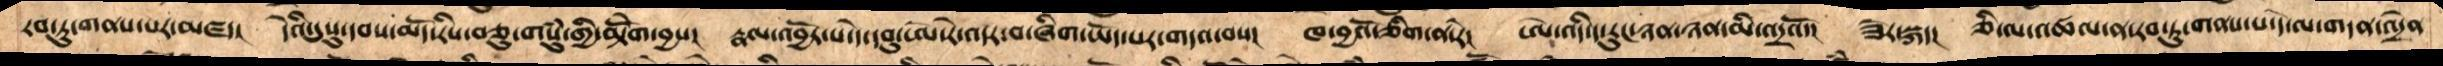རབ་ཏུ་གནས་པར་མཛད།  དེའི་དུསུ་དབས་མདོ་རིས་བཅུ་གསུཾ་གྱི་མྟོེག་བྱས།  རྣལ་འབྱོར་པ་དེ་དབུ་ཨ་རེ་འདར་བ་ཞིག་ཡོད་པར་གདའ་བས།   ཁ་བྱའོ་ཅིག་ན་རེ།  ཨེ་འདི་ད་རུང་ཉན་ཉན་མི་འདྲའོ།  ཟེར་སྐད།  ཅི་ལ་འཚལ་ན་རབ་ཏུ་གནས་པ་དེ་ལ་གདན་འདྲེན་
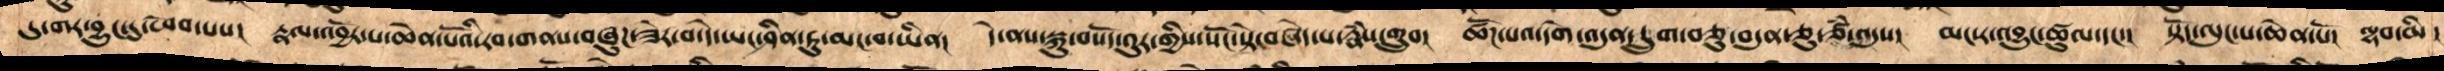དུ་གར་བྱུང་དུ་ཕེབ་པས།   རྣལ་འབྱོར་པ་ཆེན་པོའི་རབ་གནས་བཞུཌ་ཟེར་བ་དེ་ཡང་ཤིན་ཏུ་མང་བ་ཡིན།  དེ་ནས་སྐུ་བསོད་འུར་གྱིས་སོང་སྟེ་བཞེད་པ་རྣཾས་གྲུབ།  ཚོཌ་པའ་དགེ་འདུན་དྲུག་ཅུ་བདུན་ཅུ་ཙཾ་འདུས།   མང་ར་འབྱུང་ཚུལ་དང་།  སྟོད་ལུང་པ་ཆེན་པོ། ལྷབ་མི་
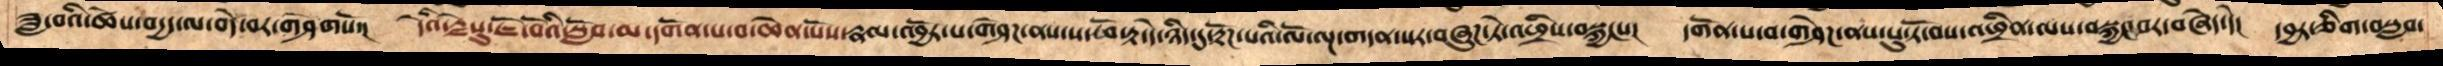ཟླ་བའི་ཚེས་བདྱད་ལ་བདེ་བར་གཤེགསོ་།   དེའི་རྗེསུ་ཇོ་བོའི་སློབ་མ་དགོན་པ་བ་ཆེན་པོས་རྣལ་འབྱོར་པ་གཤེཌ་ནས་ས་ཕོ་རྟ་དེ་ཉིད་དུརྟོཌ་པའི་ལོ་ལྔ་གདན་སར་བཞུཌ་ཏེ་འཕྲིས་བསྐྱངས།   དགོན་པ་བ་གཤེཌ་ནས་པུ་ཏོ་བས་འཕྲིས་ལས་བསྐྱང་བར་བཞེད་དེ།   དབྱར་ཅིག་བསླབ་
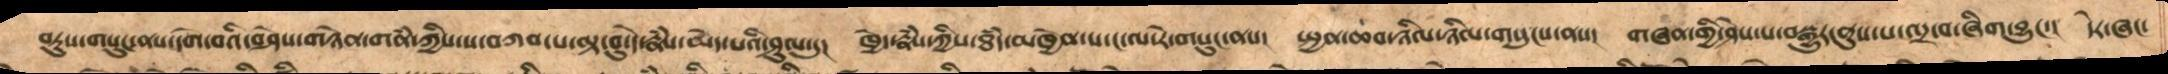བཏུས་གསུང་ནས་དགེ་བའི་བཤེས་གཉེན་གནཾ་ཀྱིས་ས་བཀབ་པ་ལྟ་བུ་དེ་རྣཾས་མེད་པའི་ཤུལ་དུ།   ཁྱེད་རྣཾས་ཀྱིས་ཐཾད་མཁྱེན་པ་ང་ལ་རེ་གསུང་ནས།   སྤྱན་ཆབ་ཉིལ་ཉིལ་གསུངས་ནས།  གཞན་གྱི་ཤེས་པ་བསྒྱུར་ནུས་པ་འདྲ་བ་ཞིག་བྱུང་།   དེར་ཞང་
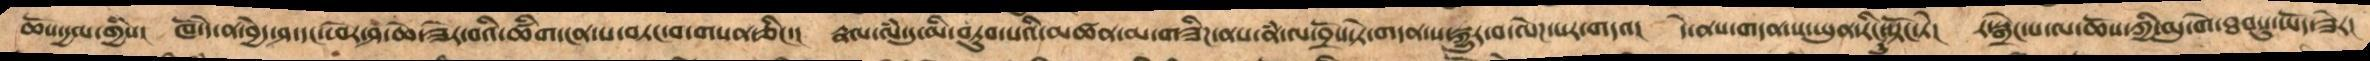ཆོས་དྱལ་གྱིས།  ཁོ་དེ་ན་བྱེད་ཤ་དང་ཕོར་ཤ་ཆེ་ཟེར་བའི་ཚིག་ངན་པ་བཏང་བ་གསན་ཅིང་།  རྣལ་ལཾ་དུ་མི་བཏུབ་པའི་མཚན་མ་གཟིཌ་ནས་ནཾ་ལ་བྲོས་ཏེ་གདན་ས་སྐྱུར་བ་ལེཌ་པར་གདའ།  དེ་ནས་གདན་ས་ཡུན་རིང་དུ་སྟོང་ཏེ།  ར་སྒྲེང་པ་ལ་ཆོས་ཀྱི་མུ་གེ་ཐབསུ་ཡོད་ཟེར།
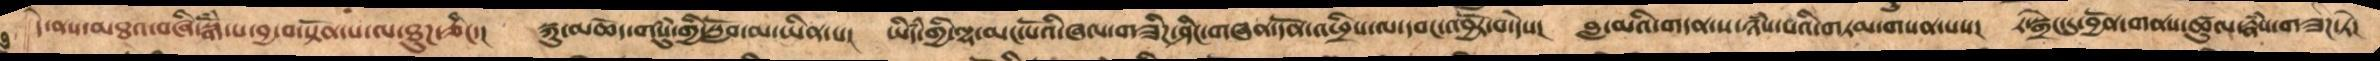དེ་ནས་མཐའ་བཞི་སྒོཾ་པ་བྱ་བ་སྟོན་པ་ལ་ཐུཌ་ཅིང་།   སྐུ་མཆོད་གསུཾ་གྱི་སློབ་མ་ཡིན་པ།   ཡིདཾ་གྱི་ལྷ་མང་པོའི་ཞལ་གཟིཌ་ཤིང་གཞན་དོན་འཕྲིས་ལ་དབང་འབྱོར་བ་དེས།  བླ་མའི་གདན་ས་ཉཾས་པའི་གཏམ་གསན་པས།   ར་སྒྲེང་དུ་བྱོན་གནས་ཚུལ་རྣཾས་གཟིཌ་ཏེ།
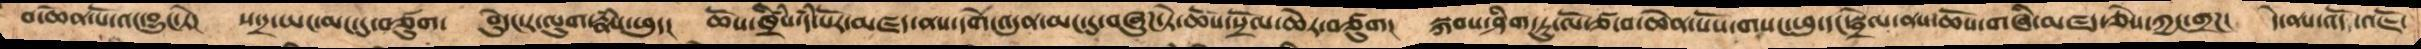བ་ཆེན་པོ་འང་བྱུང་ཏེ།   ས་དྲ་ཡང་མང་དུ་བཙུགས་   བེུདང་ར་ལུག་རྣཾས་ཕུད།   ཆོས་ཁྲིཾས་དཾ་པོར་མཛད་ནས་དགེ་འདུན་མང་དུ་བཞུཌ་ཏེ་ཆོས་སྲོལ་ཆེར་བཙུག།  སྐབས་ཤིག་ཏུ་ལོ་ཙ་བ་ཆེན་པོས་གསང་ཕུ་དང་སྦྲེལ་ནས་ཆོས་གཞི་མཛད་ཅེས་ཀྱང་གྲཌ།   དེ་ནས་འོད་འཇོ་
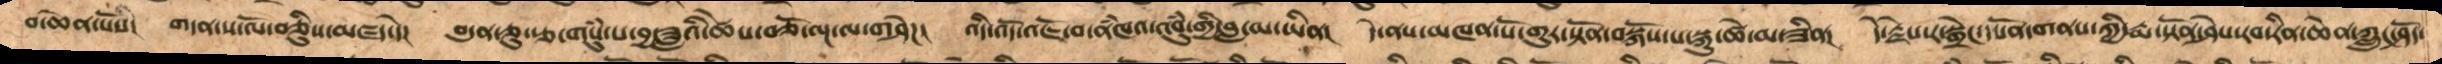བོ་ཆེན་པོས།   གདན་ས་ལོ་བཅིུས་མཛད་དེ།  བདུན་ཅུ་རྩ་གསུཾ་པ་བྱ་ཟླའི་ཚེས་བཅོ་ལྔ་ལ་གཤེཌ།  འདི་འདོ་འཇོ་བ་ནཾཁའ་འབུཾ་གྱི་བླ་མ་ཡིན།  དེ་ནས་མཁན་པོ་གུར་སྟོན་བསྐོས་པ་སྐུ་ཚེ་མ་ཟིན།   དེ་རྗེས་ར་སྒྲེང་དཔོན་གནས་ཀྱི་རྨ་སྟོན་ཤེས་རབ་རིན་ཆེན་ཀླུང་ཤོད་
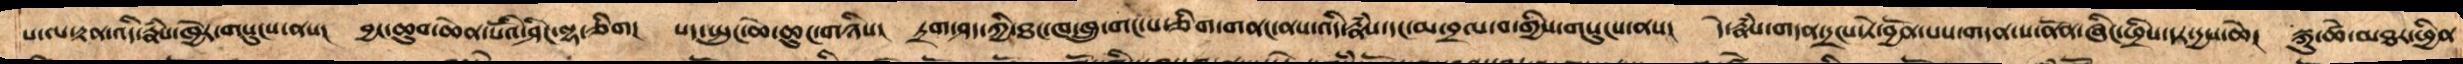པ་ལ་རྟན་འདི་རྣཾས་ཁྱེར་གསུངས་ནས།  བྱང་ཆུབ་ཆེན་པོའི་ཤིང་ལྷ་ཅིག།   པད་སྤུང་ཆེ་ཆུང་བ་གཉིས།   ཏྲག་ཤད་ཀྱི་ཐང་ཁ་ཁྲུ་གང་པ་ཅིག་གནང་ནས་འདི་རྣཾས་དང་མ་བྲལ་བ་གྱིས་གསུངས་ནས།   དེ་རྣཾས་གདན་དྲངས་ཏེ་བྱོན་པས་གདན་ས་ནོན་ཞིང་ཕྲིས་དར་དྱས་ཆེ།  སྐུ་ཚེ་མཐར་ཕྱིན་
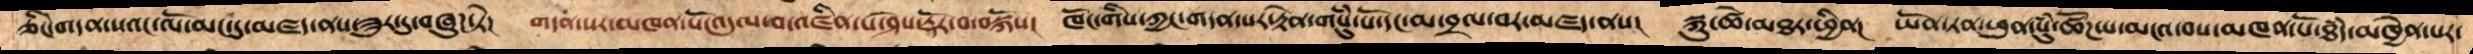ཅིང་གདན་སའང་ལོ་མང་དུ་མཛད་ནས་ཟུར་དུ་བཞུཌ་ཏེ།  གདན་སར་མཁན་པོ་འདུལ་བ་འཛིན་པ་ཤེས་རྡོར་བ་བསྐོས།  ཁོང་གིས་ཀྱང་གདན་སར་རྟེན་གསུཾ་པོ་དང་མ་བྲལ་བར་མཛད་ནས།  སྐུ་ཚེ་མཐར་ཕྱིན།   ཡོན་ཏན་ཕུན་སུཾ་ཚོཌ་པ་མངའ་བས་མཁན་པོ་ཐཾད་མཁྱེན་པར་
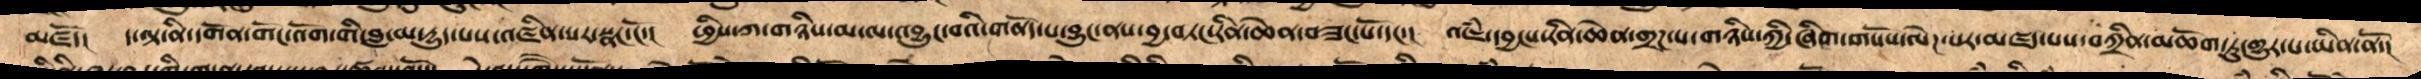མཛདོ།   ད་ལྟ་ནི་དགོན་གོང་འོག་གི་བླ་མ་དྱུད་པས་འཛིན་པར་སྣང་ངོ་།   ཕྱིས་ཀ་གཉིས་མ་ལ་འབྱུང་བའི་གནོད་པ་བྱུང་ནས་བྱ་བཏང་རིན་ཆེན་བཟང་པོ་དང་།   འཇཾ་དབྱངས་རིན་ཆེན་གྲཌ་པ་གཉིས་ཀྱི་ཞིག་གསོས་ལེཌ་པར་མཛད་པས་བཀྲིན་མཆོག་ཏུ་གྱུར་པ་ཡིན་ནོ་།
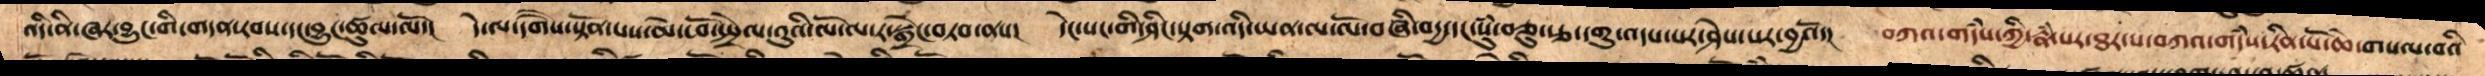འདི་ནི་ཞར་བྱུང་གི་གདན་རབས་དང་བྱུང་ཚུལ་ལོ།  དེ་ལ་དགཻས་སྟོན་པས་མེ་ཕོ་སྤྲེལ་འུའི་ལོ་ལ་ར་སྒྲེང་བཏབ་ནས།   དེང་སང་གི་ཤིང་སྟག་འདི་ཡན་ལ་ལོ་བཞི་བདྱ་དང་སུཾ་བཅུ་རྩ་དགུ་འདས་པར་ཤེས་པར་བྱའོ་།   བཀའ་གདཾས་ཀྱི་རྣཾ་པར་ཐར་པ་བཀའ་གདཾས་རིན་པོ་ཆེ་གསལ་བའི་
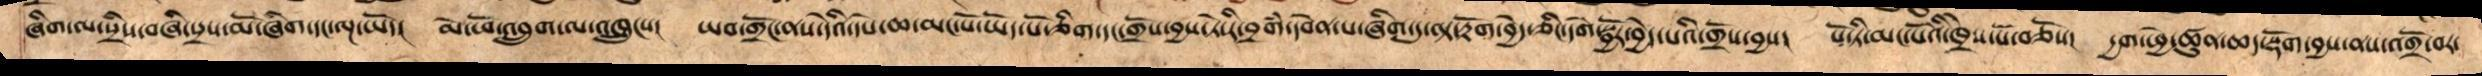ཞིག་ལ་སྲིས་བཞི་སྲས་མོ་ཞིག་དང་ལྔ་ཡོད།   མེ་ཕོ་འབྲུག་ལ་འཁྲུངས།   ཡབ་གྲོང་ནས་དེའི་དཔེ་ཆ་མང་པོ་ཡོད་པོ་ཅིག་དང་གྲོས་བྱས་ཏེ་རི་བྲགཾ་དབེན་ས་ཞིག་དུ་ལྟ་རྔོག་བྱེད་ཅིང་དགེ་སྦྱོར་བྱེད་པའི་གྲོས་བྱས།   པོ་ཏི་མང་པོའི་ཁྲིེས་པོ་བཅོས།   དྱག་ཕྱེ་ཚུན་ཆད་སྡོག་བྱས་ནས་འགྲོ་བར་
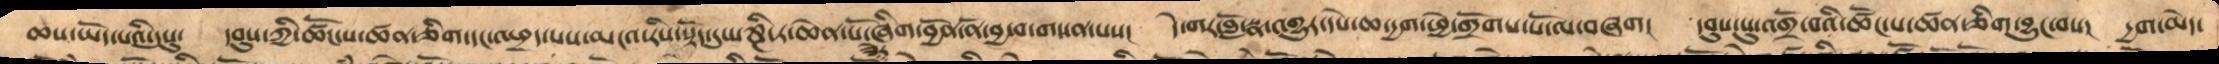ཆས་ཡོད་པའི་དུསུ།  དབུས་ཀྱི་ཚོང་པ་ཚན་ཅིག་དང་འཕྲད་པས་མངའ་རིས་སྟོད་དུ་པཎྜི་ཏ་ཆེན་པོ་ཞིག་བྱོན་ནོ་བྱ་བ་གསན་པས།  དེ་གར་བློ་སྣ་འགྱུར་དཔེ་ཆ་དྱག་ཕྱེ་གྲོགས་པོ་ལ་བཞག།  དབུས་སུ་འགྲོ་བའི་ཚོང་པ་ཚན་ཅིག་བྱུང་བས།  དྱག་མེད་
